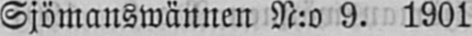Sjömanswännen N:o 9. 1901.
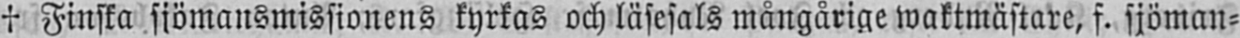† Finska sjömansmissionens kyrkas och läsesals mångårige waktmästare, f. sjöman-
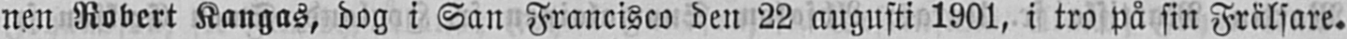nen Robert Kangas, dog i San Francisco den 22 augusti 1901, i tro på sin Frälsare.
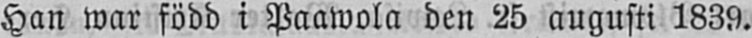Han war född i Paawola den 25 augusti 1839.
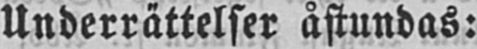Underrättelser åstundas:
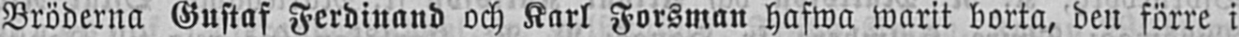Bröderna Gustaf Ferdinand och Karl Forsman hafwa warit borta, den förre i
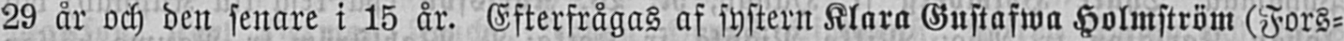29 år och den senare i 15 år. Efterfrågas af systern Klara Gustafwa Holmström (Fors-
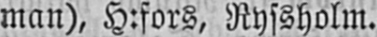man), H:fors, Ryssholm.
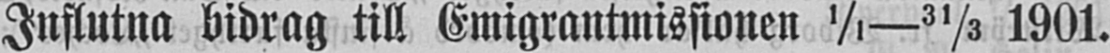Influtna bidrag till Emigrantmissionen 1/1—31/3 1901.
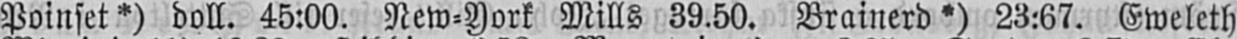Poinset*) doll. 45:00. New-York Mills 39.50. Brainerd*) 23:67. Eweleth
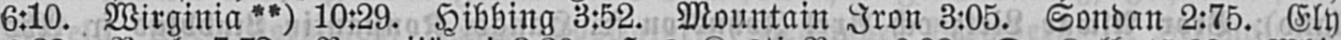6:10. Wirginia**) 10:29. Hibbing 3:52. Mountain Iron 3:05. Sondan 2:75. Ely
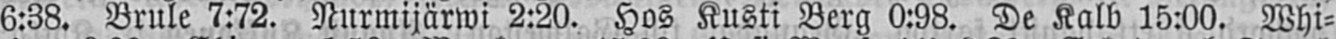6:38. Brule 7:72. Nurmijärwi 2:20. Hos Kusti Berg 0:98. De Kalb 15:00. Whi-
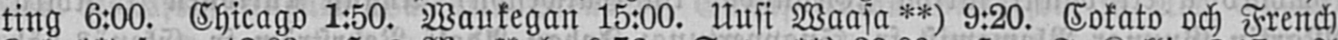ting 6:00. Chicago 1:50. Waukegan 15:00. Uusi Waasa**) 9:20. Cokato och French
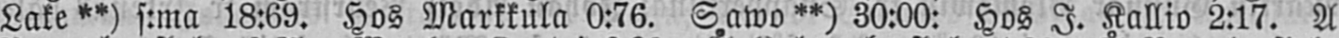Lake**) s:ma 18:69. Hos Markkula 0:76. Sawo **) 30:00: Hos I. Kallio 2:17. A
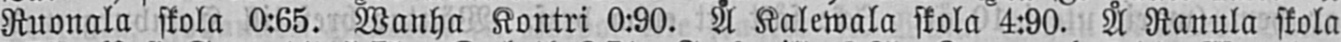Ruonala skola 0:65. Wanha Kontri 0:90. Å Kalewala skola 4:90. Å Ranula skola
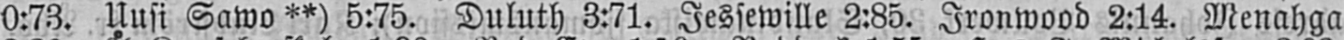0:73. Uusi Sawo **) 5:75. Duluth 3:71. Jessewille 2:85. Ironwood 2:14. Menahga
